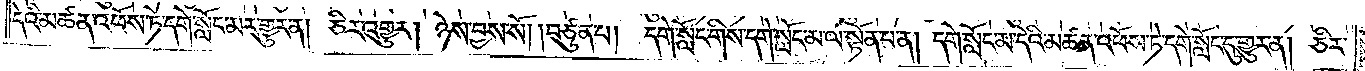དེའི་མཚན་འཕོས་ཏེ་དགེ་སློང་མར་གྱུར་ན། ཅིར་འགྱུར། ཉེས་བྱས་སོ། །བཙུན་པ། དགེ་སློང་གིས་དགེ་སློང་མ་ལ་སྟོན་པ་ན། དགེ་སློང་མ་དེའི་མཚན་འཕོས་ཏེ་དགེ་སློང་དུ་གྱུར་ན། ཅིར་
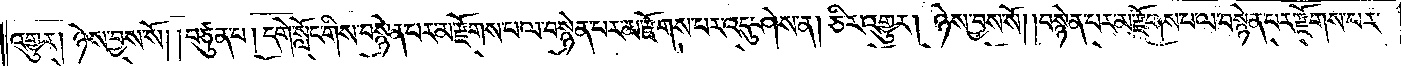འགྱུར། ཉེས་བྱས་སོ། །བཙུན་པ། དགེ་སློང་གིས་བསྙེན་པར་མ་རྫོགས་པ་ལ་བསྙེན་པར་མ་རྫོགས་པར་འདུ་ཤེས་ན། ཅིར་འགྱུར། ཉེས་བྱས་སོ། །བསྙེན་པར་མ་རྫོགས་པ་ལ་བསྙེན་པར་རྫོགས་པར་
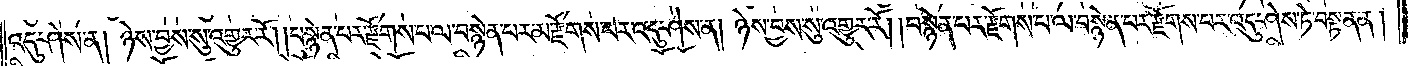འདུ་ཤེས་ན། ཉེས་བྱས་སུ་འགྱུར་རོ། །བསྙེན་པར་རྫོགས་པ་ལ་བསྙེན་པར་མ་རྫོགས་པར་འདུ་ཤེས་ན། ཉེས་བྱས་སུ་འགྱུར་རོ། །བསྙེན་པར་རྫོགས་པ་ལ་བསྙེན་པར་རྫོགས་པར་འདུ་ཤེས་ཏེ་བསྟན་ན།
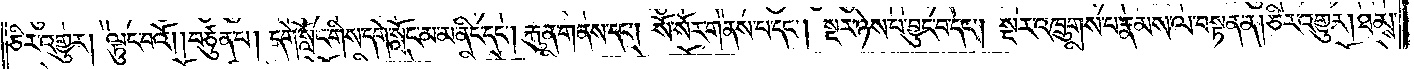ཅིར་འགྱུར། ལྟུང་བའོ། །བཙུན་པ། དགེ་སློང་གིས་དགེ་སློང་མ་མ་ནིང་དང༌། རྐུན་གནས་དང༌། སོ་སོར་གནས་པ་དང༌། སྔར་ཉེས་པ་བྱུང་བ་དང༌། སྔར་འཁྲུགས་པ་རྣམས་ལ་བསྟན་ན། ཅིར་འགྱུར། ཐམས་
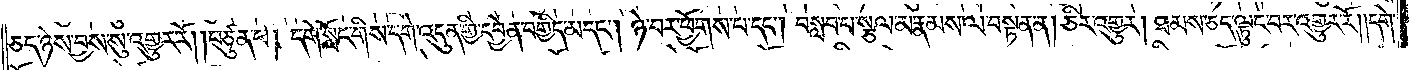ཅད་ཉེས་བྱས་སུ་འགྱུར་རོ། །བཙུན་པ། དགེ་སློང་གིས་དགེ་འདུན་གྱི་དབྱེན་བགྱིད་མ་དང༌། ཉེ་བར་ཕྱོགས་པ་དང༌། བསླབ་པ་སྩལ་མ་རྣམས་ལ་བསྟན་ན། ཅིར་འགྱུར། ཐམས་ཅད་ལྟུང་བར་འགྱུར་རོ། །དགེ་
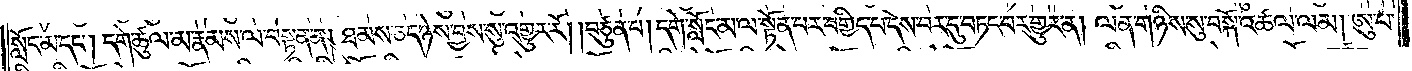སློང་མ་དང༌། དགེ་ཚུལ་མ་རྣམས་ལ་བསྟན་ན། ཐམས་ཅད་ཉེས་བྱས་སུ་འགྱུར་རོ། །བཙུན་པ། དགེ་སློང་མ་ལ་སྟོན་པར་བགྱིད་པ་དེས་བར་དུ་བཏང་བར་གྱུར་ན། ལན་གཉིས་སུ་བསྐོ་འཚལ་ལམ། ཨུ་པ་
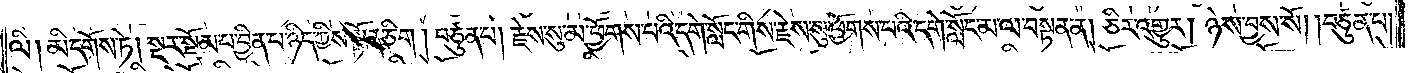ལི། མི་དགོས་ཏེ། སྔར་སྡོམ་པ་བྱིན་པ་ཉིད་ཀྱིས་སྟོན་ཅིག །བཙུན་པ། རྗེས་སུ་མ་ཕྱོགས་པའི་དགེ་སློང་གིས་རྗེས་སུ་ཕྱོགས་པའི་དགེ་སློང་མ་ལ་བསྟན་ན། ཅིར་འགྱུར། ཉེས་བྱས་སོ། །བཙུན་པ།
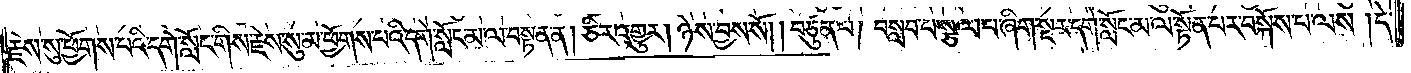རྗེས་སུ་ཕྱོགས་པའི་དགེ་སློང་གིས་རྗེས་སུ་མ་ཕྱོགས་པའི་དགེ་སློང་མ་ལ་བསྟན་ན། ཅིར་འགྱུར། ཉེས་བྱས་སོ། །བཙུན་པ། བསླབ་པ་སྩལ་པ་ཞིག་སྔར་དགེ་སློང་མ་ལ་སྟོན་པར་བསྐོས་པ་ལས། །དེ་
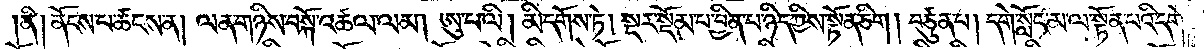།ནི། ནོངས་པ་ཚངས་ན། ལན་གཉིས་བསྐོ་འཚལ་ལམ། ཨུ་པ་ལི། མི་དགོས་ཏེ། སྔར་སྡོམ་པ་བྱིན་པ་ཉིད་ཀྱིས་སྟོན་ཅིག །བཙུན་པ། དགེ་སློང་མ་ལ་སྟོན་པའི་དགེ་
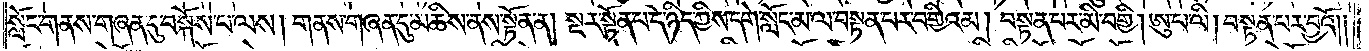སློང་གནས་གཞན་དུ་བསྐོས་པ་ལས། གནས་གཞན་དུ་མཆིས་ནས་སྟོན་ན། སྔར་སྟོན་པ་དེ་ཉིད་ཀྱིས་དགེ་སློང་མ་ལ་བསྟན་པར་བགྱིའམ། བསྟན་པར་མི་བགྱི། ཨུ་པ་ལི། བསྟན་པར་བྱའོ། །
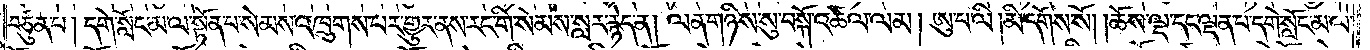བཙུན་པ། དགེ་སློང་མ་ལ་སྟོན་པ་སེམས་འཁྲུགས་པར་གྱུར་ནས་རང་གི་སེམས་སླར་རྙེད་ན། ལན་གཉིས་སུ་བསྐོ་འཚལ་ལམ། ཨུ་པ་ལི། མི་དགོས་སོ། །ཆོས་ལྔ་དང་ལྡན་པ་དགེ་སློང་མ་ལ་
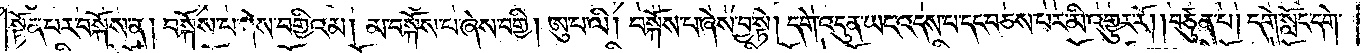སྟོན་པར་བསྐོས་ན། བསྐོས་པ་ཞེས་བགྱིའམ། མ་བསྐོས་པ་ཞེས་བགྱི། ཨུ་པ་ལི། བསྐོས་པ་ཞེས་བྱ་སྟེ། དགེ་འདུན་ཡང་འདས་པ་དང་བཅས་པར་མི་འགྱུར་རོ། །བཙུན་པ། དགེ་སློང་དགེ་
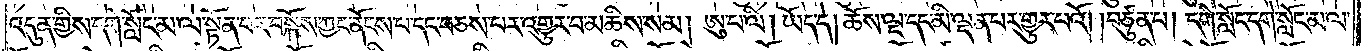འདུན་གྱིས་དགེ་སློང་མ་ལ་སྟོན་པར་བསྐོས་ཀྱང་ནོངས་པ་དང་བཅས་པར་འགྱུར་བ་མཆིས་སམ། ཨུ་པ་ལི། ཡོད་དེ། ཆོས་ལྔ་དང་མི་ལྡན་པར་གྱུར་པའོ། །བཙུན་པ། དགེ་སློང་དགེ་སློང་མ་ལ་
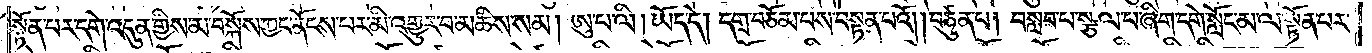སྟོན་པར་དགེ་འདུན་གྱིས་མ་བསྐོས་ཀྱང་ནོངས་པར་མི་འགྱུར་བ་མཆིས་སམ། ཨུ་པ་ལི། ཡོད་དེ། དགྲ་བཅོམ་པས་བསྟན་པའོ། །བཙུན་པ། བསླབ་པ་སྩལ་པ་ཞིག་དགེ་སློང་མ་ལ་སྟོན་པར་
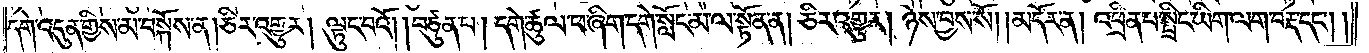དགེ་འདུན་གྱིས་མ་བསྐོས་ན། ཅིར་འགྱུར། ལྟུང་བའོ། །བཙུན་པ། དགེ་ཚུལ་ཕ་ཞིག་དགེ་སློང་མ་ལ་སྟོན་ན། ཅིར་འགྱུར། ཉེས་བྱས་སོ།    །མདོར་ན། འཕྲིན་པ་སྤྲིང་ཡིག་ལག་བརྡ་དང༌། །
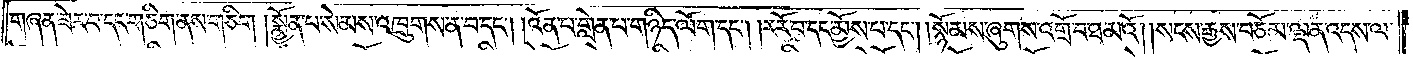གཞན་ཟེར་བ་དང་གཅིག་ནས་གཅིག །སྨྱོན་པ་སེམས་འཁྲུགས་ན་བ་དང༌། །འོན་པ་གླེན་པ་གཉིད་ལོག་དང༌། །ར་རོ་བ་དང་མྱོས་པ་དང༌། །སྙོམས་ཞུགས་འགྲོ་བ་ཐ་མའོ། །སངས་རྒྱས་བཅོམ་ལྡན་འདས་ལ་
